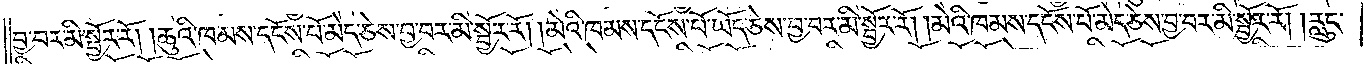བྱ་བར་མི་སྦྱོར་རོ། །ཆུའི་ཁམས་དངོས་པོ་མེད་ཅེས་བྱ་བར་མི་སྦྱོར་རོ། །མེའི་ཁམས་དངོས་པོ་ཡོད་ཅེས་བྱ་བར་མི་སྦྱོར་རོ། །མེའི་ཁམས་དངོས་པོ་མེད་ཅེས་བྱ་བར་མི་སྦྱོར་རོ། །རླུང་
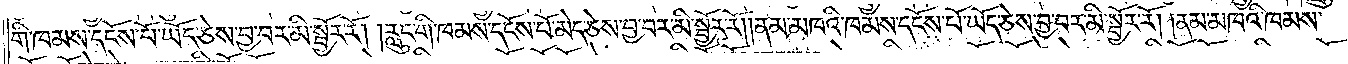གི་ཁམས་དངོས་པོ་ཡོད་ཅེས་བྱ་བར་མི་སྦྱོར་རོ། །རླུང་གི་ཁམས་དངོས་པོ་མེད་ཅེས་བྱ་བར་མི་སྦྱོར་རོ། །ནམ་མཁའི་ཁམས་དངོས་པོ་ཡོད་ཅེས་བྱ་བར་མི་སྦྱོར་རོ། །ནམ་མཁའི་ཁམས་
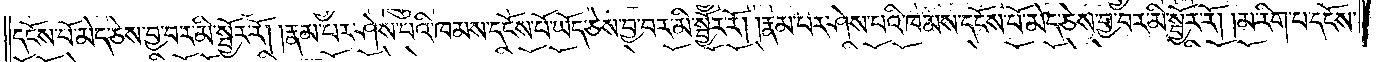དངོས་པོ་མེད་ཅེས་བྱ་བར་མི་སྦྱོར་རོ། །རྣམ་པར་ཤེས་པའི་ཁམས་དངོས་པོ་ཡོད་ཅེས་བྱ་བར་མི་སྦྱོར་རོ། །རྣམ་པར་ཤེས་པའི་ཁམས་དངོས་པོ་མེད་ཅེས་བྱ་བར་མི་སྦྱོར་རོ། །མ་རིག་པ་དངོས་
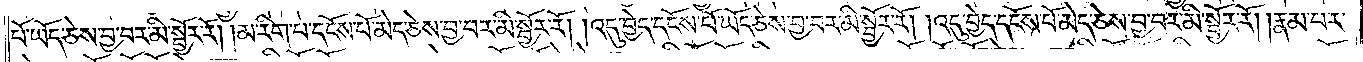པོ་ཡོད་ཅེས་བྱ་བར་མི་སྦྱོར་རོ། །མ་རིག་པ་དངོས་པོ་མེད་ཅེས་བྱ་བར་མི་སྦྱོར་རོ། །འདུ་བྱེད་དངོས་པོ་ཡོད་ཅེས་བྱ་བར་མི་སྦྱོར་རོ། །འདུ་བྱེད་དངོས་པོ་མེད་ཅེས་བྱ་བར་མི་སྦྱོར་རོ། །རྣམ་པར་
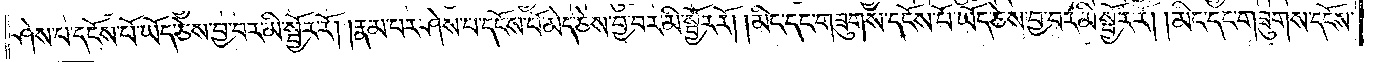ཤེས་པ་དངོས་པོ་ཡོད་ཅེས་བྱ་བར་མི་སྦྱོར་རོ། །རྣམ་པར་ཤེས་པ་དངོས་པོ་མེད་ཅེས་བྱ་བར་མི་སྦྱོར་རོ། །མིང་དང་གཟུགས་དངོས་པོ་ཡོད་ཅེས་བྱ་བར་མི་སྦྱོར་རོ། །མིང་དང་གཟུགས་དངོས་
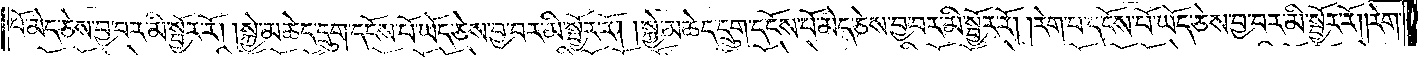པོ་མེད་ཅེས་བྱ་བར་མི་སྦྱོར་རོ། །སྐྱེ་མཆེད་དྲུག་དངོས་པོ་ཡོད་ཅེས་བྱ་བར་མི་སྦྱོར་རོ། །སྐྱེ་མཆེད་དྲུག་དངོས་པོ་མེད་ཅེས་བྱ་བར་མི་སྦྱོར་རོ། །རེག་པ་དངོས་པོ་ཡོད་ཅེས་བྱ་བར་མི་སྦྱོར་རོ། །རེག་
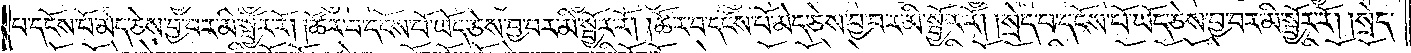པ་དངོས་པོ་མེད་ཅེས་བྱ་བར་མི་སྦྱོར་རོ། །ཚོར་བ་དངོས་པོ་ཡོད་ཅེས་བྱ་བར་མི་སྦྱོར་རོ། །ཚོར་བ་དངོས་པོ་མེད་ཅེས་བྱ་བར་མི་སྦྱོར་རོ། །སྲེད་པ་དངོས་པོ་ཡོད་ཅེས་བྱ་བར་མི་སྦྱོར་རོ། །སྲེད་
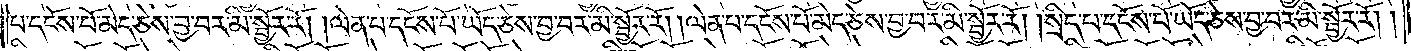པ་དངོས་པོ་མེད་ཅེས་བྱ་བར་མི་སྦྱོར་རོ། །ལེན་པ་དངོས་པོ་ཡོད་ཅེས་བྱ་བར་མི་སྦྱོར་རོ། །ལེན་པ་དངོས་པོ་མེད་ཅེས་བྱ་བར་མི་སྦྱོར་རོ། །སྲིད་པ་དངོས་པོ་ཡོད་ཅེས་བྱ་བར་མི་སྦྱོར་རོ། །
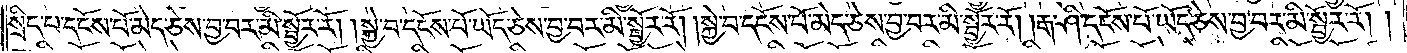སྲིད་པ་དངོས་པོ་མེད་ཅེས་བྱ་བར་མི་སྦྱོར་རོ། །སྐྱེ་བ་དངོས་པོ་ཡོད་ཅེས་བྱ་བར་མི་སྦྱོར་རོ། །སྐྱེ་བ་དངོས་པོ་མེད་ཅེས་བྱ་བར་མི་སྦྱོར་རོ། །རྒ་ཤི་དངོས་པོ་ཡོད་ཅེས་བྱ་བར་མི་སྦྱོར་རོ། །
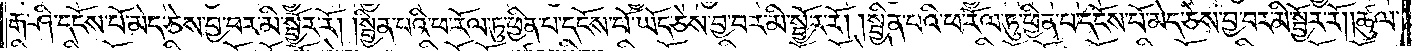རྒ་ཤི་དངོས་པོ་མེད་ཅེས་བྱ་བར་མི་སྦྱོར་རོ། །སྦྱིན་པའི་ཕ་རོལ་ཏུ་ཕྱིན་པ་དངོས་པོ་ཡོད་ཅེས་བྱ་བར་མི་སྦྱོར་རོ། །སྦྱིན་པའི་ཕ་རོལ་ཏུ་ཕྱིན་པ་དངོས་པོ་མེད་ཅེས་བྱ་བར་མི་སྦྱོར་རོ། །ཚུལ་
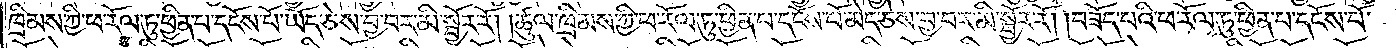ཁྲིམས་ཀྱི་ཕ་རོལ་ཏུ་ཕྱིན་པ་དངོས་པོ་ཡོད་ཅེས་བྱ་བར་མི་སྦྱོར་རོ། །ཚུལ་ཁྲིམས་ཀྱི་ཕ་རོལ་ཏུ་ཕྱིན་པ་དངོས་པོ་མེད་ཅེས་བྱ་བར་མི་སྦྱོར་རོ། །བཟོད་པའི་ཕ་རོལ་ཏུ་ཕྱིན་པ་དངོས་པོ་
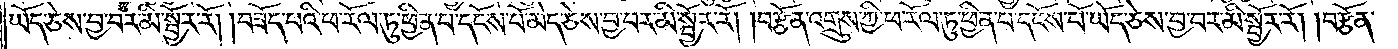ཡོད་ཅེས་བྱ་བར་མི་སྦྱོར་རོ། །བཟོད་པའི་ཕ་རོལ་ཏུ་ཕྱིན་པ་དངོས་པོ་མེད་ཅེས་བྱ་བར་མི་སྦྱོར་རོ། །བརྩོན་འགྲུས་ཀྱི་ཕ་རོལ་ཏུ་ཕྱིན་པ་དངོས་པོ་ཡོད་ཅེས་བྱ་བར་མི་སྦྱོར་རོ། །བརྩོན་
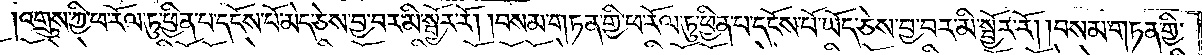འགྲུས་ཀྱི་ཕ་རོལ་ཏུ་ཕྱིན་པ་དངོས་པོ་མེད་ཅེས་བྱ་བར་མི་སྦྱོར་རོ། །བསམ་གཏན་གྱི་ཕ་རོལ་ཏུ་ཕྱིན་པ་དངོས་པོ་ཡོད་ཅེས་བྱ་བར་མི་སྦྱོར་རོ། །བསམ་གཏན་གྱི་
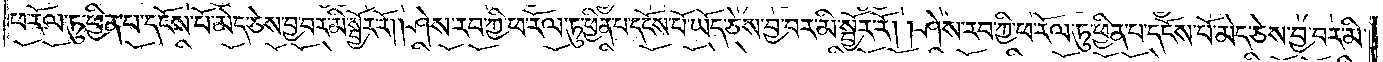ཕ་རོལ་ཏུ་ཕྱིན་པ་དངོས་པོ་མེད་ཅེས་བྱ་བར་མི་སྦྱོར་རོ། །ཤེས་རབ་ཀྱི་ཕ་རོལ་ཏུ་ཕྱིན་པ་དངོས་པོ་ཡོད་ཅེས་བྱ་བར་མི་སྦྱོར་རོ། །ཤེས་རབ་ཀྱི་ཕ་རོལ་ཏུ་ཕྱིན་པ་དངོས་པོ་མེད་ཅེས་བྱ་བར་མི་
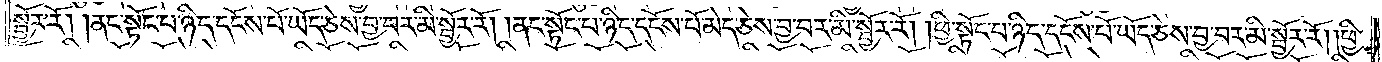སྦྱོར་རོ། །ནང་སྟོང་པ་ཉིད་དངོས་པོ་ཡོད་ཅེས་བྱ་བར་མི་སྦྱོར་རོ། །ནང་སྟོང་པ་ཉིད་དངོས་པོ་མེད་ཅེས་བྱ་བར་མི་སྦྱོར་རོ། །ཕྱི་སྟོང་པ་ཉིད་དངོས་པོ་ཡོད་ཅེས་བྱ་བར་མི་སྦྱོར་རོ། །ཕྱི་
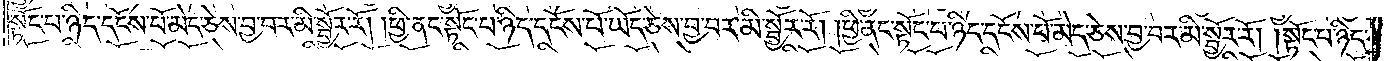སྟོང་པ་ཉིད་དངོས་པོ་མེད་ཅེས་བྱ་བར་མི་སྦྱོར་རོ། །ཕྱི་ནང་སྟོང་པ་ཉིད་དངོས་པོ་ཡོད་ཅེས་བྱ་བར་མི་སྦྱོར་རོ། །ཕྱི་ནང་སྟོང་པ་ཉིད་དངོས་པོ་མེད་ཅེས་བྱ་བར་མི་སྦྱོར་རོ། །སྟོང་པ་ཉིད་
